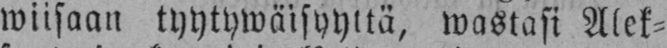wiisaan tyytywäisyyttä, wastasi Alek-
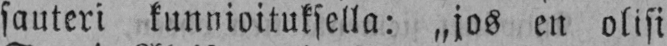sauteri kunnioituksella: „jos en olisi
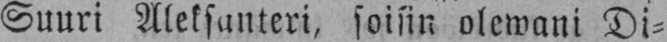Suuri Aleksanteri, soisin olewani Di-
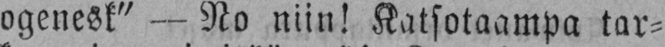ogenesk" - No niin! Katsotaampa tar-
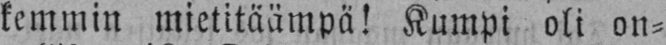kemmin mietitäämpä! Kumpi oli on-
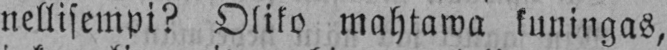nellisempi? Oliko mahtawa kuningas,
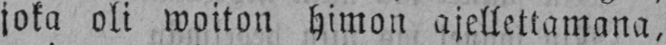joka oli woiton himon ajellettamana,
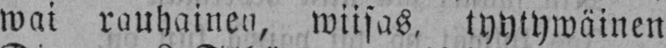wai rauhainen, wiisas, tyytywäinen
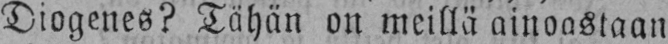Diogenes? Tähän on meillä ainoastaan
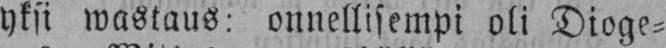yksi wastaus: onnellisempi oli Dioge-
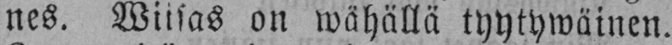nes. Wiisas on wähällä tyytywäinen.
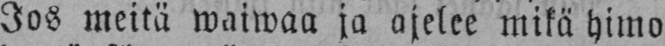Jos meitä waiwaa ja ajelee mikä himo
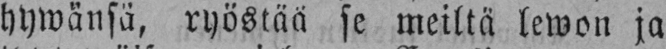hywansä, ryöstää se meiltä lewon ja
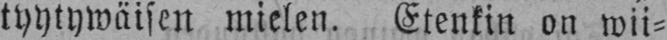tyytywäisen mielen. Etenkin on wii-
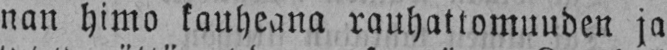nan himo kauheana rauhattomuuden ja
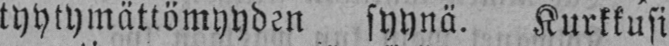tyytymättömyyden syynä. Kurkkusi
